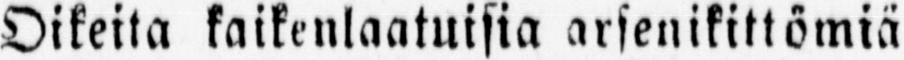Oikeita kaikenlaatuisia arsenikittömiä
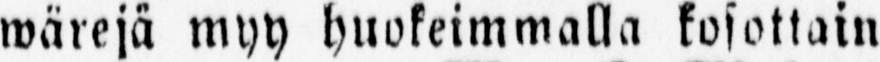wärejä myy huokeimmalla kosottain
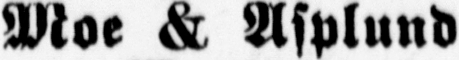Moe & Asplund
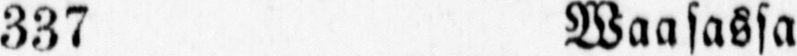337 Waasassa.
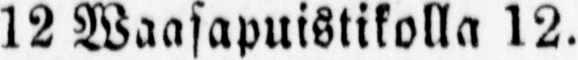12 Waasapuistikolla 12.
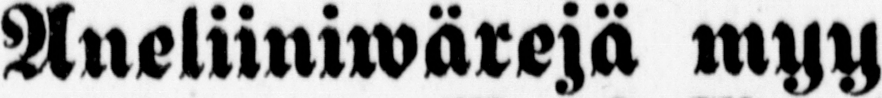Aneliiniwärejä myy
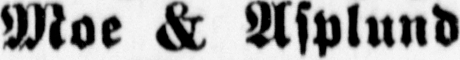Moe & Asplund
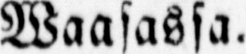Waasassa.
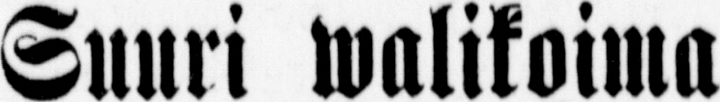Suuri walikoima
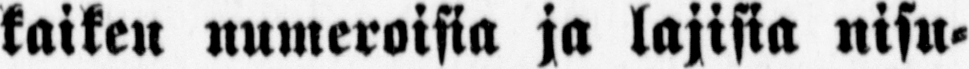kaiken numeroisia ja lajisia nisu-
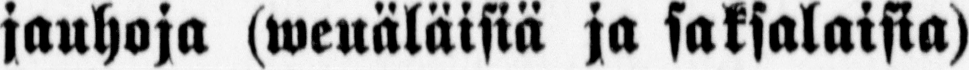jauhoja (weuäläisiä ja saksalaisia)
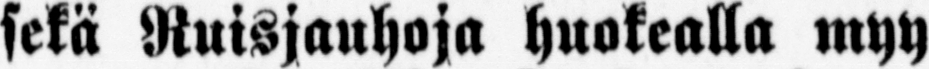sekä Ruisjauhoja huokealla myy
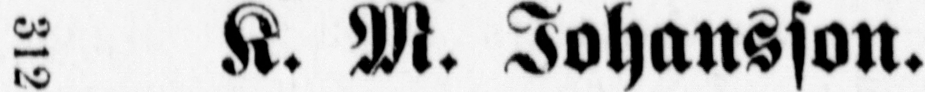312 K. M. Johansson.
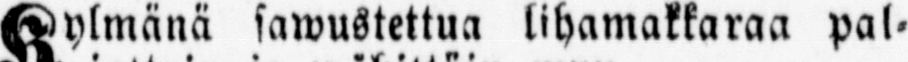Kylmänä sawustettua lihamakkaraa pal-
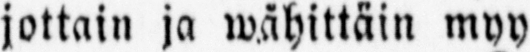jottain ja wähittäin myy
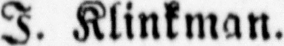I. Klinkman.
